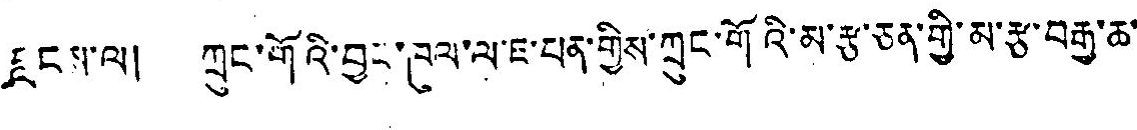བླངས་ལ། ཀྲུང་གོའི་བྱང་ཁུལ་ལ་ཇ་པན་གྱིས་ཀྲུང་གོའི་མ་རྩ་ཅན་གྱི་མ་རྩ་བརྒྱ་ཆ་
